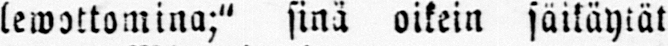lewottomina;" sinä oikein säikäytät
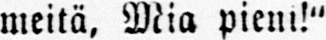meitä, Mia pieni!"
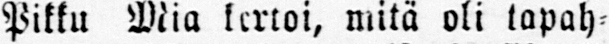Pikku Mia kertoi, mitä oli tapah-
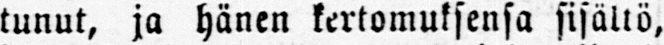tunut, ja hänen kertomuksensa sisältö,
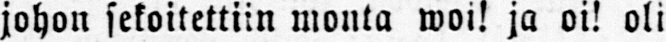johon sekoitettiin monta woi! ja oi! oli
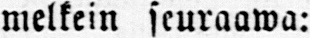melkein seuraawa:
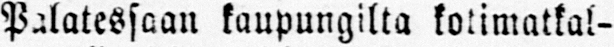Palatessaan kaupungilta kotimatkal-
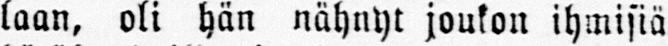laan, oli hän nähnyt joukon ihmisiä
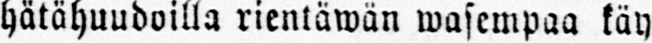hätähuudoilla rientäwän wasempaa käy-
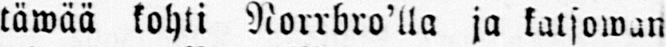täwää kohti Norrbro'lla ja katsowan
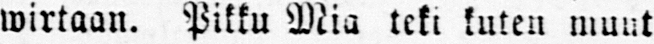wirtaan. Pikku Mia teki kuten muut-
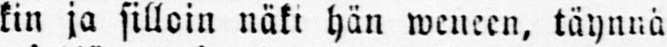kin ja silloin näki hän weneen, täynnä
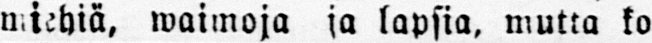miehiä, waimoja ja lapsia, mutta ko
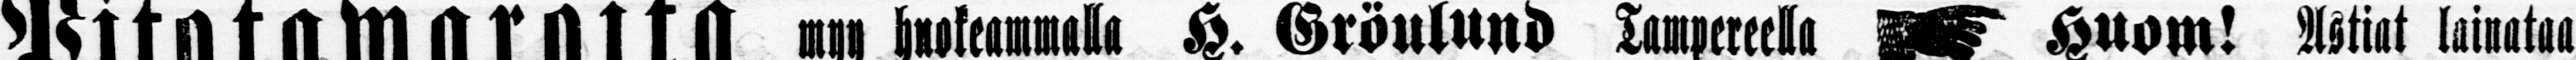Pitotawaroita myy huokeammalla H.
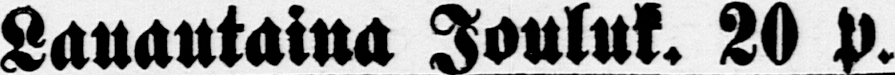Lauautaina Jouluk. 20 P.
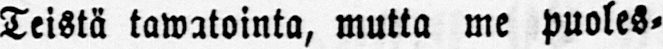Teistä tawatointa, mutta me puoles-
